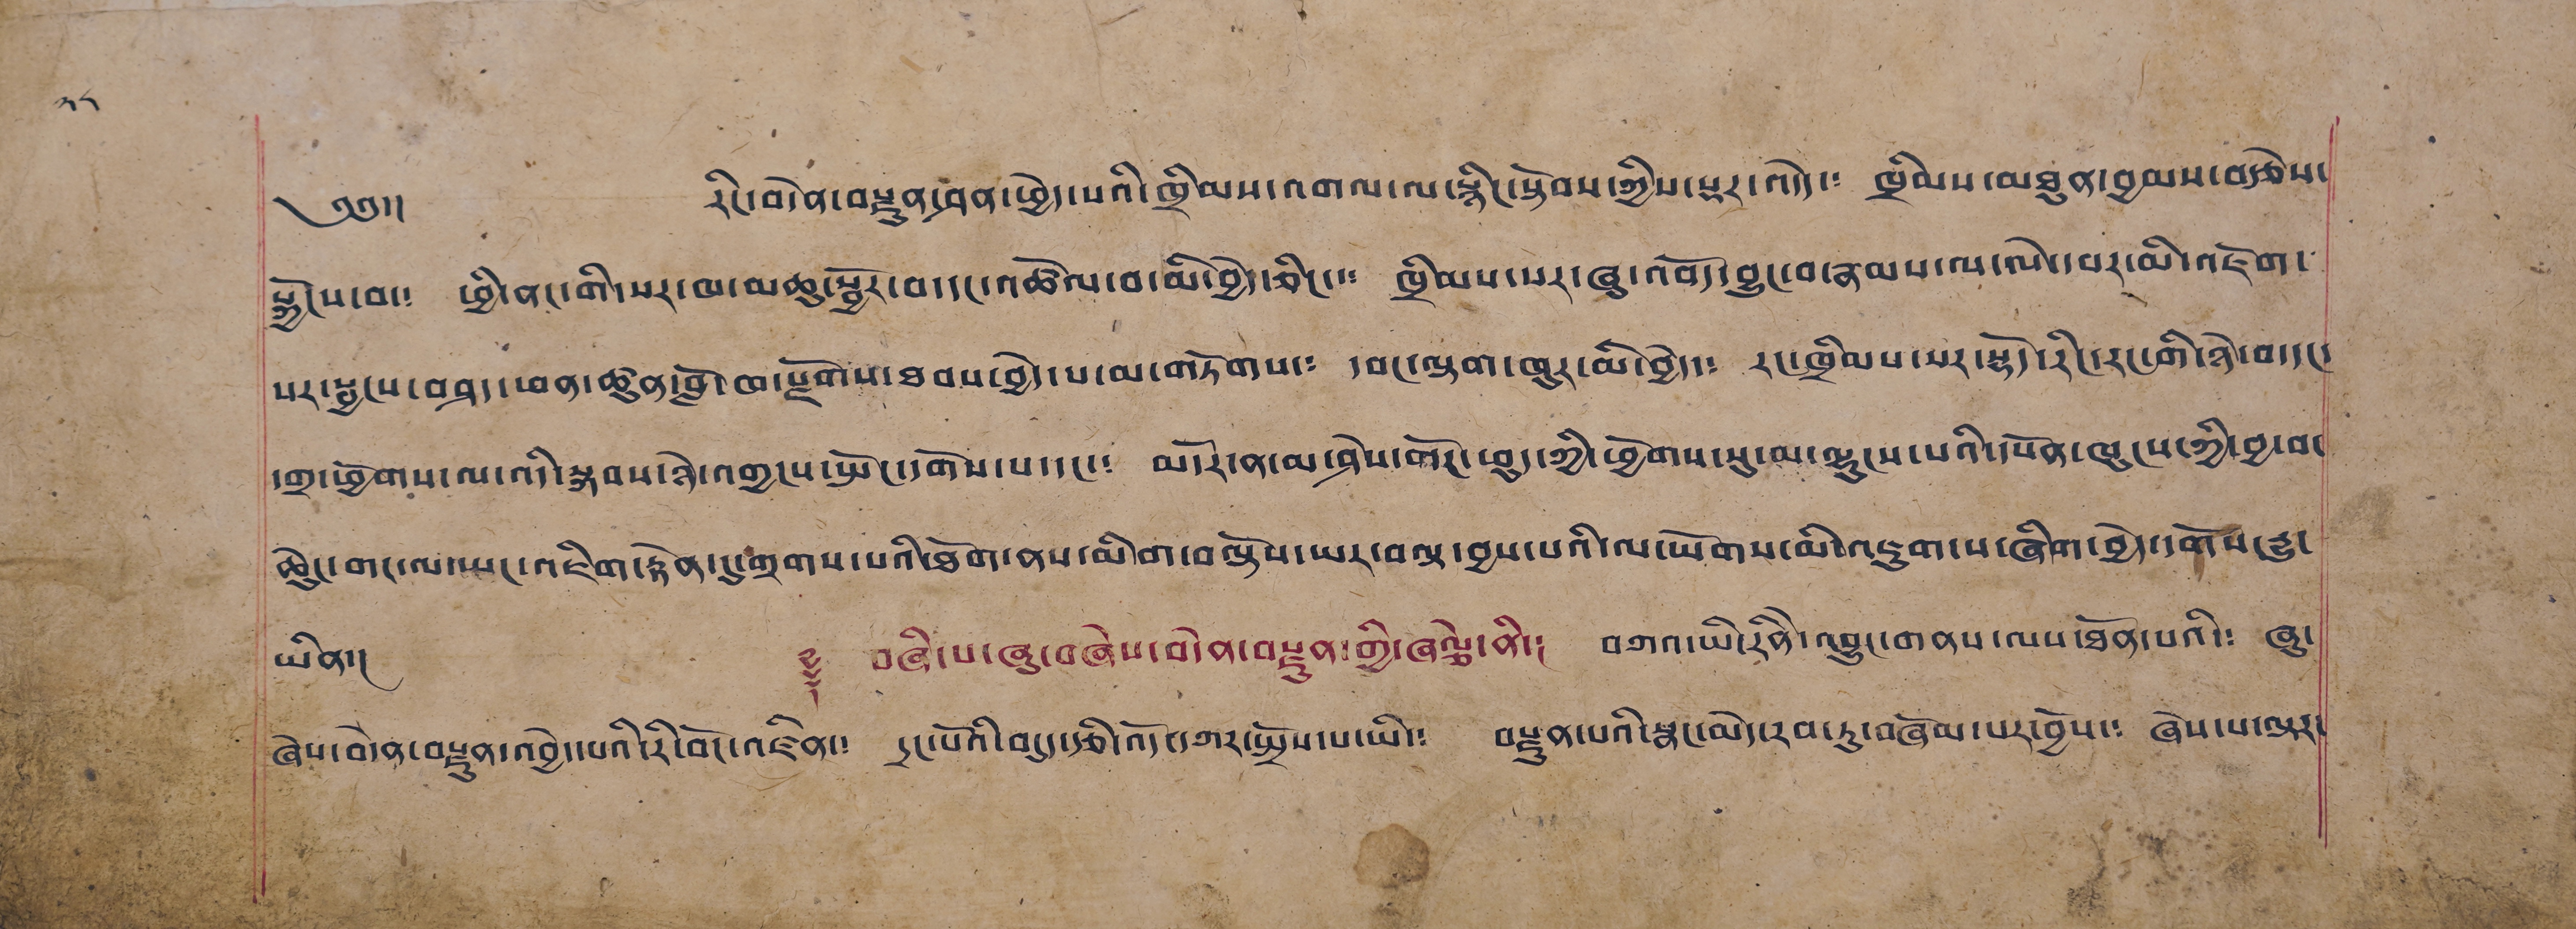༢༨
༄༅།། རིང་བདེན་བརྫུན་ཤན་ཕྱེད་པའི་ཁྲིམས་འགལ་ལ་རྙིང་སྟོབས་ཀྱིས་སྡར་འདོད་༴ ཁྲིམས་མཐུན་བྱམས་བརྩེས་
སྐྱེངས་བ་༴ ཕྱི་ནང་གི་སར་མ་མཆུ་སྦྱོར་བ་དང་འཚོལ་བ་མི་བྱེད་ཅིང་༴ ཁྲིམས་སར་ཞུ་འབོད་བྱུང་བ་རྣམས་ལ་ལེ་དབར་མི་འཇོག་
པར་སྦྱངས་བཤད་ཕན་ཚུན་བློ་ཁ་རྫོགས་ཐབས་བྱེད་པ་མ་གཏོགས་༴ དབང་ལྟག་ཁུར་མི་བྱེད་༴ རང་ཁྲིམས་སར་སྟོད་རིང་རང་གི་ཉེ་བ་དང་
དགྲ་ཕྱོགས་ལ་འདི་སྐབས་ཉེ་འགྱངས་སྤོང་དགེས་པ་དང་༴ མདོར་ན་མ་ཤེས་གོང་ཕུད་ཀྱི་ཕྱོགས་སུ་མ་ལྷུངས་པའི་དཔོན་ཁུངས་ཀྱི་བྱ་བ་
ཆེུང་གང་ལ་ཡང་འཇིག་རྟེན་དུ་གྲགས་པའི་ཐོག་ནས་མིག་བལྟོས་ཡར་བལྟ་བྱས་པའི་ལ་ཡོགས་མི་འཇུག་པ་ཞིག་བྱེད་དགོས་རྒྱུ་
ཡིན་།  ༈ བཞི་པ་ཞུ་བཞེས་བདེན་བརྫུན་གྱི་ཞལྕེ་ནི་། བཀའ་ཡི་རིནེ་འབྱུང་གནས་ལས་ཐོན་པའི་༴ ཞུ་
ཞེས་བདེན་བརྫུན་འབྱེད་པའི་རི་བོང་འཛིན་༴ དྲང་པོའི་བདུད་རྩི་འོད་དཀར་སྤྲོས་པ་ཡི་༴ བརྫུན་པའི་སྣང་མེད་རབ་ཏུ་བཞོམ་པར་བྱོས་༴ ཞེས་པ་ལྟར་
